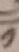༡
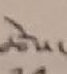ཚེས་
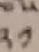༢༡
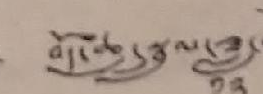བོད་ཆུ་སྦྲུལ་ཟླ་
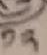༡༢
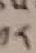༡༢
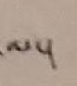ལ་
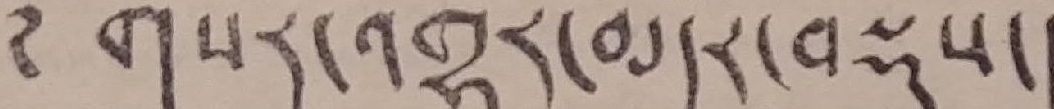༄ གསར་འགྱུར་མདོར་བསྡུས།
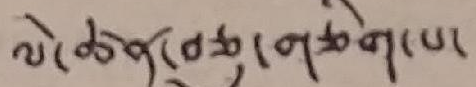ལེ་ཚན་བཅུ་གཅིག་པ་
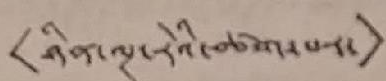<ཉིན་ལྔ་རེའི་ཚག་པར་>
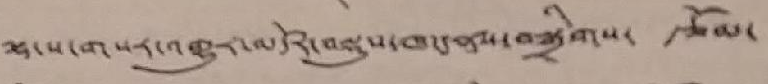ལྷ་ས་གསར་འགྱུར་མདོར་བསྡུས་ཁང་ནས་བསྒྲིགས་ རྩོམ་
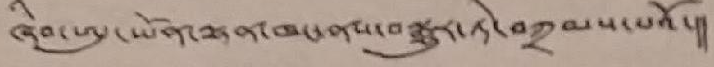ཞིབ་ཨུ་ཡོན་ལྷན་ཁང་ནས་བསྒྱུར་ཏེ་བཀྲམས་པའོ།
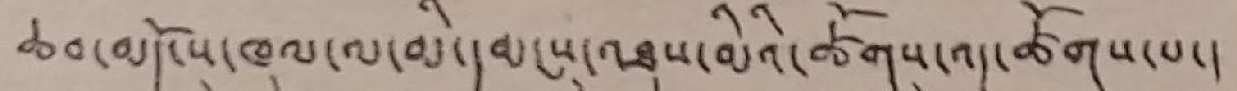ཆབ་མདོ་ས་ཁུལ་ལ་མི་དམངས་འཐུས་མིའི་ཚོགས་འདུ་ཚོགས་པ།
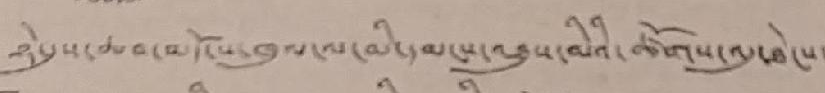ཉེ་དུས་ཆབ་མདོ་ས་ཁུལ་ལ་མི་དམངས་འཐུས་མིའི་ཚོགས་འདུ་ཐེངས་
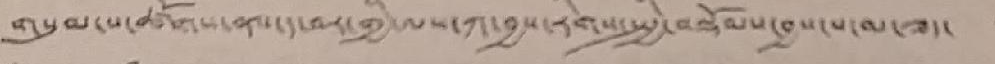གསུམ་པ་ཚོགས་ན་ད་བར་གྱི་ལས་ཀ་བྱས་རིགས་སྤྱི་བསྡོམས་བྱས་པ་མ་ཟད་ ་་
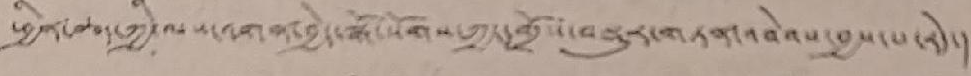ཕྱིན་ཆད་ཀྱི་ལས་འགན་བྱེད་སྒོ་སོགས་ཀྱང་དགྲོས་བསྡུར་གཏན་འབེབས་བྱས་པ་རེད།
